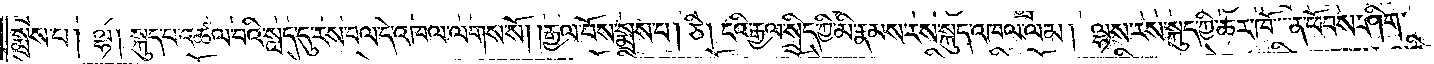སྨྲས་པ། ལྷ། སྐུད་པ་འཚལ་བའི་སླད་དུ་རས་བལ་དེ་འཁལ་ལགས་སོ། །རྒྱལ་པོས་སྨྲས་པ། ཅི། ངའི་རྒྱལ་སྲིད་ཀྱི་མི་རྣམས་རས་སྐུད་འཁལ་ལམ། ལྷས་རས་སྐུད་ཀྱི་ཆར་ཁོ་ན་ཕོབས་ཤིག་
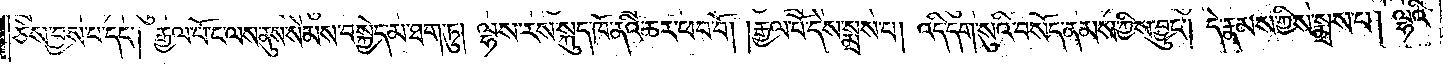ཅེས་བྱས་པ་དང༌། རྒྱལ་པོ་ང་ལས་ནུས་སེམས་བསྐྱེད་མ་ཐག་ཏུ། ལྷས་རས་སྐུད་ཁོ་ནའི་ཆར་ཕབ་བོ། །རྒྱལ་པོ་དེས་སྨྲས་པ། འདི་དག་སུའི་བསོད་ནམས་ཀྱིས་བྱུང༌། དེ་རྣམས་ཀྱིས་སྨྲས་པ། ལྷའི་
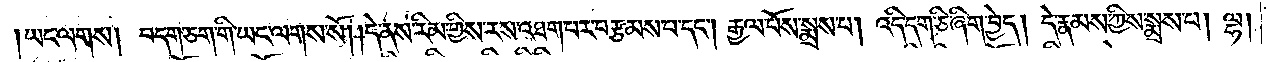།ཡང་ལགས། བདག་ཅག་གི་ཡང་ལགས་སོ། །དེ་ནས་རིམ་གྱིས་རས་འཐག་པར་བརྩམས་པ་དང༌། རྒྱལ་པོས་སྨྲས་པ། འདི་དག་ཅི་ཞིག་བྱེད། དེ་རྣམས་ཀྱིས་སྨྲས་པ། ལྷ།
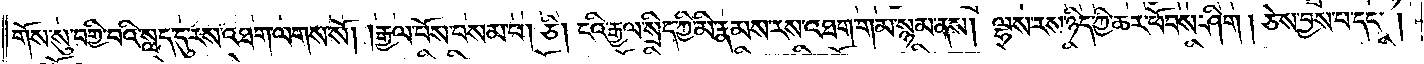གོས་སུ་བགྱི་བའི་སླད་དུ་རས་འཐག་ལགས་སོ། །རྒྱལ་པོས་བསམ་པ། ཅི། ངའི་རྒྱལ་སྲིད་ཀྱི་མི་རྣམས་རས་འཐག་གམ་སྙམ་ནས། ལྷས་རས་ཉིད་ཀྱི་ཆར་ཕོབས་ཤིག །ཅེས་བྱས་པ་དང༌།
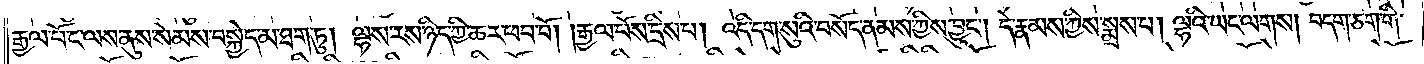རྒྱལ་པོ་ང་ལས་ནུས་སེམས་བསྐྱེད་མ་ཐག་ཏུ། ལྷས་རས་ཉིད་ཀྱི་ཆར་ཕབ་བོ། །རྒྱལ་པོས་དྲིས་པ། འདི་དག་སུའི་བསོད་ནམས་ཀྱིས་བྱུང༌། དེ་རྣམས་ཀྱིས་སྨྲས་པ། ལྷའི་ཡང་ལགས། བདག་ཅག་གི་
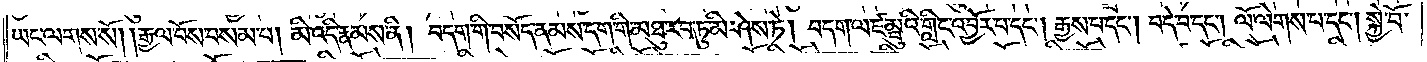ཡང་ལགས་སོ། །རྒྱལ་པོས་བསམ་པ། མི་འདི་རྣམས་ནི། བདག་གི་བསོད་ནམས་དག་གི་མཐུ་རབ་ཏུ་མི་ཤེས་ཏེ། བདག་ལ་ཛམྦུའི་གླིང་འབྱོར་བ་དང༌། རྒྱས་པ་དང༌། བདེ་བ་དང༌། ལོ་ལེགས་པ་དང༌། སྐྱེ་བོ་
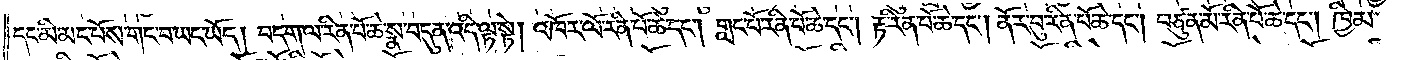དང་མི་མང་པོས་གང་བ་ཡང་ཡོད། བདག་ལ་རིན་པོ་ཆེ་སྣ་བདུན་འདི་ལྟ་སྟེ། འཁོར་ལོ་རིན་པོ་ཆེ་དང༌། གླང་པོ་རིན་པོ་ཆེ་དང༌། རྟ་རིན་པོ་ཆེ་དང༌། ནོར་བུ་རིན་པོ་ཆེ་དང༌། བཙུན་མོ་རིན་པོ་ཆེ་དང༌། ཁྱིམ་
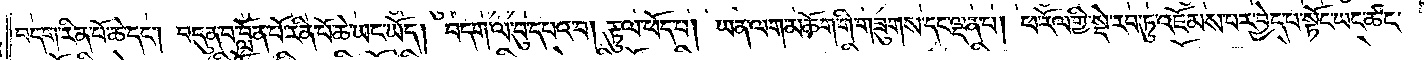བདག་རིན་པོ་ཆེ་དང༌། བདུན་བ་བློན་པོ་རིན་པོ་ཆེ་ཡང་ཡོད། བདག་ལ་བུ་དཔའ་བ། རྟུལ་ཕོད་པ། ཡན་ལག་མཆོག་གི་གཟུགས་དང་ལྡན་པ། ཕ་རོལ་གྱི་སྡེ་རབ་ཏུ་འཇོམས་པར་བྱེད་པ་སྟོང་ཡང་ཚང་
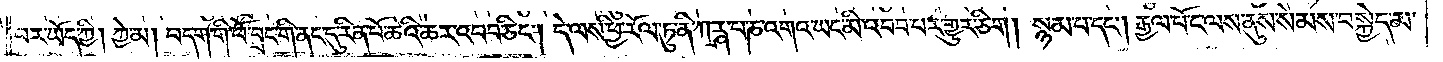བར་ཡོད་ཀྱི། ཀྱེ་མ། བདག་གི་ཕོ་བྲང་གི་ནང་དུ་རིན་པོ་ཆེའི་ཆར་འབབ་ཅིང༌། དེ་ལས་ཕྱི་རོལ་ཏུ་ནི་ཀརྴ་པ་ཎ་འགའ་ཡང་མི་འབབ་པར་གྱུར་ཅིག །སྙམ་པ་དང༌། རྒྱལ་པོ་ང་ལས་ནུས་སེམས་བསྐྱེད་མ་
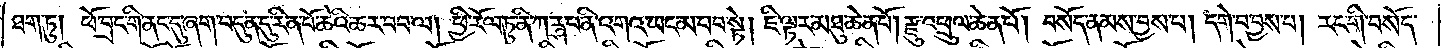ཐག་ཏུ། ཕོ་བྲང་གི་ནང་དུ་ཞག་བདུན་དུ་རིན་པོ་ཆེའི་ཆར་བབ་ལ། ཕྱི་རོལ་ཏུ་ནི་ཀཪྴ་པ་ནི་འགའ་ཡང་མ་བབ་སྟེ། ཇི་ལྟར་མཐུ་ཆེན་པོ། རྫུ་འཕྲུལ་ཆེན་པོ། བསོད་ནམས་བྱས་པ། དགེ་བ་བྱས་པ། རང་གི་བསོད་
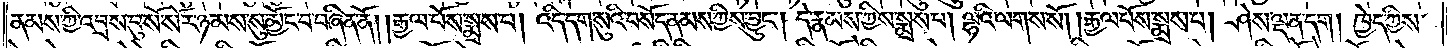ནམས་ཀྱི་འབྲས་བུ་སོ་སོར་ཉམས་སུ་མྱོང་བ་བཞིན་ནོ། །རྒྱལ་པོས་སྨྲས་པ། འདི་དག་སུའི་བསོད་ནམས་ཀྱིས་བྱུང༌། དེ་རྣམས་ཀྱིས་སྨྲས་པ། ལྷའི་ལགས་སོ། །རྒྱལ་པོས་སྨྲས་པ། ཤེས་ལྡན་དག །ཁྱེད་ཀྱིས་
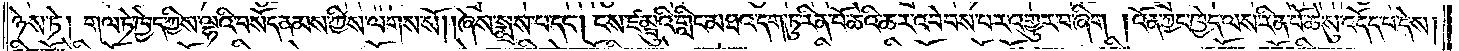ཉེས་ཏེ། གལ་ཏེ་ཁྱོད་ཀྱིས་ལྷའི་བསོད་ནམས་ཀྱིས་ལགས་སོ། །ཞེས་སྨྲས་པ་དང༌། ངས་ཛམྦུའི་གླིང་མཐའ་དག་ཏུ་རིན་པོ་ཆེའི་ཆར་འབེབས་པར་འགྱུར་བ་ཞིག །འོན་ཀྱང་ཁྱེད་ལས་རིན་པོ་ཆེ་སུ་འདོད་པ་དེས།
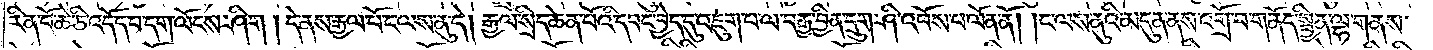རིན་པོ་ཆེ་ཅི་འདོད་པ་དག་ལོངས་ཤིག །དེ་ནས་རྒྱལ་པོ་ང་ལས་ནུ་དེ། རྒྱལ་སྲིད་ཆེན་པོའི་དབང་བྱེད་དུ་འཇུག་པ་ལ་བརྒྱ་བྱིན་དྲུག་ཤི་འཕོས་པ་ལོན་ནོ། །ང་ལས་ནུའི་མདུན་ནས་འགྲོ་བ་གནོད་སྦྱིན་ལྷ་གནས་
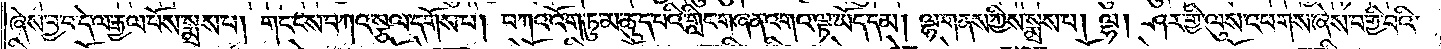ཞེས་བྱ་བ་དེ་ལ་རྒྱལ་པོས་སྨྲས་པ། གང་ངས་བཀའ་སྩལ་དགོས་པ། བཀའ་འོག་ཏུ་མ་ཆུད་པའི་གླིང་གཞན་འགའ་ལྟ་ཡོད་དམ། ལྷ་གནས་ཀྱིས་སྨྲས་པ། ལྷ། ཤར་གྱི་ལུས་འཕགས་ཞེས་བགྱི་བའི་
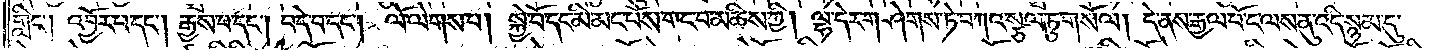གླིང༌། འབྱོར་བ་དང༌། རྒྱས་པ་དང༌། བདེ་བ་དང༌། ལོ་ལེགས་པ། སྐྱེ་བོ་དང་མི་མང་པོས་གང་བ་མཆིས་ཀྱི། ལྷ་དེར་གཤེགས་ཏེ་བཀའ་སྩལ་ཏུ་གསོལ། དེ་ནས་རྒྱལ་པོ་ང་ལས་ནུ་འདི་སྙམ་དུ་
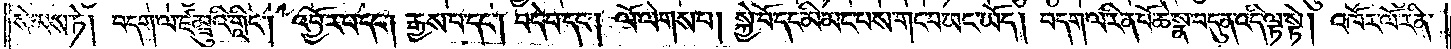སེམས་ཏེ། བདག་ལ་ཛམྦུའི་གླིང༌། འབྱོར་པ་དང༌། རྒྱས་པ་དང༌། བདེ་བ་དང༌། ལོ་ལེགས་པ། སྐྱེ་བོ་དང་མི་མང་པས་གང་བ་ཡང་ཡོད། བདག་ལ་རིན་པོ་ཆེ་སྣ་བདུན་འདི་ལྟ་སྟེ། འཁོར་ལོ་རིན་
